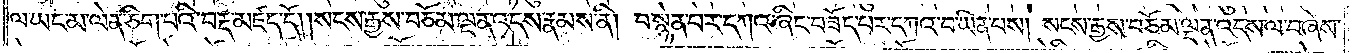ལ་ཡང་མ་ལེན་ཅིག་པའི་བརྡ་མཛད་དོ། །སངས་རྒྱས་བཅོམ་ལྡན་འདས་རྣམས་ནི། བསྙེན་པར་དཀའ་ཞིང་བཟོད་པར་དཀའ་བ་ཡིན་པས། སངས་རྒྱས་བཅོམ་ལྡན་འདས་ལ་བཞེས་
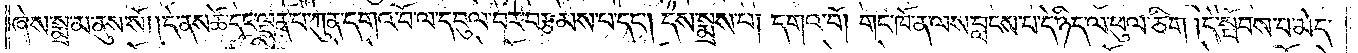ཞེས་སྨྲ་མ་ནུས་སོ། །དེ་ནས་ཚེ་དང་ལྡན་པ་ཀུན་དགའ་བོ་ལ་དབུལ་བར་བརྩམས་པ་དང༌། དེས་སྨྲས་པ། དགའ་བོ། གང་ཁོ་ན་ལས་བླངས་པ་དེ་ཉིད་ལ་ཕུལ་ཅིག །དེ་སྤོབས་པ་མེད་
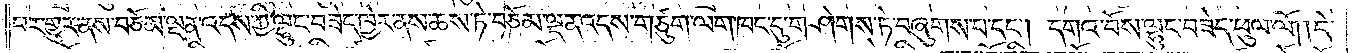པར་གྱུར་ནས་བཅོམ་ལྡན་འདས་ཀྱི་ལྷུང་བཟེད་ཁྱེར་ནས་ཆས་ཏེ་བཅོམ་ལྡན་འདས་གཙུག་ལག་ཁང་དུ་གཤེགས་ཏེ་བཞུགས་པ་དང༌། དགའ་བོས་ལྷུང་བཟེད་ཕུལ་ལོ། །དེ་
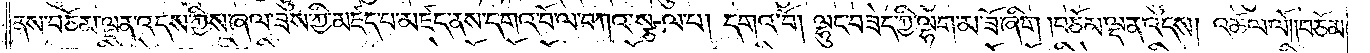ནས་བཅོམ་ལྡན་འདས་ཀྱིས་ཞལ་ཟས་ཀྱི་མཛད་པ་མཛད་ནས་དགའ་བོ་ལ་བཀའ་སྩལ་པ། དགའ་བོ། ལྷུང་བཟེད་ཀྱི་ལྷག་མ་ཟོ་ཞིག །བཅོམ་ལྡན་འདས། འཚལ་ལོ། །བཅོམ་
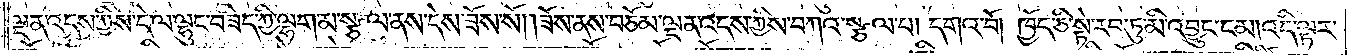ལྡན་འདས་ཀྱིས་དེ་ལ་ལྷུང་བཟེད་ཀྱི་ལྷག་མ་སྩལ་ནས་དེས་ཟོས་སོ། །ཟོས་ནས་བཅོམ་ལྡན་འདས་ཀྱིས་བཀའ་སྩལ་པ། དགའ་བོ། ཁྱོད་ཅི་སྟེ་རབ་ཏུ་མི་འབྱུང་ངམ། འདི་ལྟར་
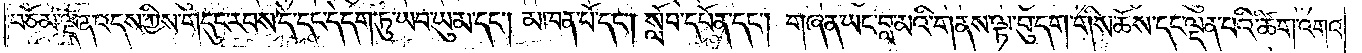བཅོམ་ལྡན་འདས་ཀྱིས་གདུང་རབས་དེ་དང་དེ་དག་ཏུ་ཡབ་ཡུམ་དང༌། མཁན་པོ་དང༌། སློབ་དཔོན་དང༌། གཞན་ཡང་བླ་མའི་གནས་ལྟ་བུ་དག་གིས་ཆོས་དང་ལྡན་པའི་ཚིག་འགའ་
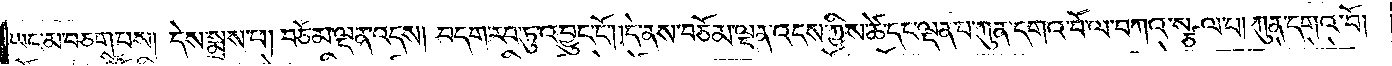ཡང་མ་བཅག་པས། དེས་སྨྲས་པ། བཅོམ་ལྡན་འདས། བདག་རབ་ཏུ་འབྱུང་ངོ༌། །དེ་ནས་བཅོམ་ལྡན་འདས་ཀྱིས་ཚེ་དང་ལྡན་པ་ཀུན་དགའ་བོ་ལ་བཀའ་སྩལ་པ། ཀུན་དགའ་བོ།
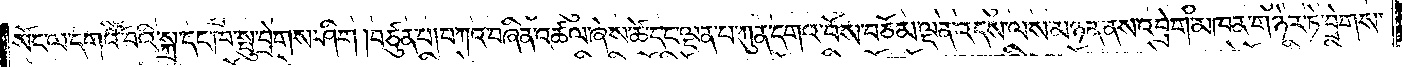སོང་ལ་དགའ་བོའི་སྐྲ་དང་ཁ་སྤུ་བྲེགས་ཤིག །བཙུན་པ། བཀའ་བཞིན་འཚལ་ཞེས་ཚེ་དང་ལྡན་པ་ཀུན་དགའ་བོས་བཅོམ་ལྡན་འདས་ལས་མཉན་ནས་འབྲེག་མཁན་གཉེར་ཏེ་བྲེགས་
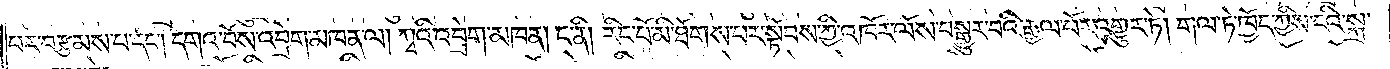པར་བརྩམས་པ་དང༌། དགའ་བོས་འབྲེག་མཁན་ལ། ཀྭའི་འབྲེག་མཁན། ང་ནི། རིང་པོ་མི་ཐོགས་པར་སྟོབས་ཀྱི་འཁོར་ལོས་བསྒྱུར་བའི་རྒྱལ་པོར་འགྱུར་ཏེ། གལ་ཏེ་ཁྱོད་ཀྱིས་ངའི་སྐྲ་
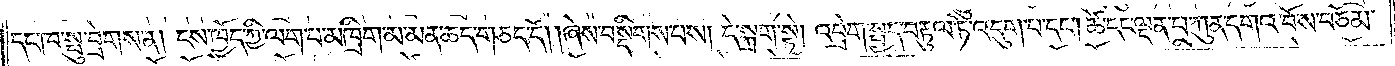དང་ཁ་སྤུ་བྲེགས་ན། ངས་ཁྱོད་ཀྱི་ལག་པ་མཁྲིག་མ་མན་ཆད་གཅད་དོ། །ཞེས་བསྡིགས་པས། དེ་སྐྲག་སྟེ། འབྲེག་སྤྱད་བརྟུལ་ཏེ་འདུག་པ་དང༌། ཚེ་དང་ལྡན་པ་ཀུན་དགའ་བོས་བཅོམ་
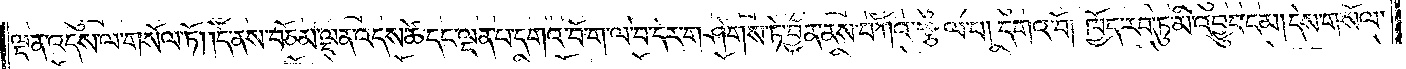ལྡན་འདས་ལ་གསོལ་ཏོ། །དེ་ནས་བཅོམ་ལྡན་འདས་ཚེ་དང་ལྡན་པ་དགའ་བོ་ག་ལ་བ་དེར་གཤེགས་ཏེ་བྱོན་ནས་བཀའ་སྩལ་པ། དགའ་བོ། ཁྱོད་རབ་ཏུ་མི་འབྱུང་ངམ། དེས་གསོལ་
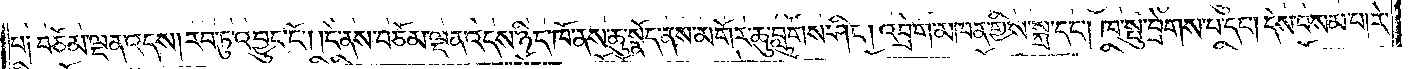པ། བཅོམ་ལྡན་འདས། རབ་ཏུ་འབྱུང་ངོ༌། །དེ་ནས་བཅོམ་ལྡན་འདས་ཉིད་ཁོ་ནས་ཆུ་སྣོད་ནས་མགོར་ཆུ་བླུགས་ཤིང༌། འབྲེག་མཁན་གྱིས་སྐྲ་དང༌། ཁ་སྤུ་བྲེགས་པ་དང༌། དེས་བསམ་པ། རེ་
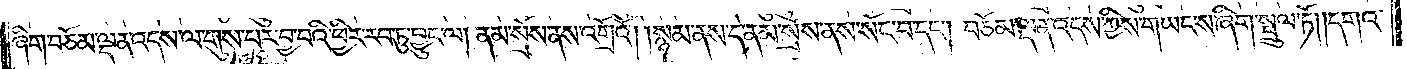ཞིག་བཅོམ་ལྡན་འདས་ལ་གུས་པར་བྱ་བའི་ཕྱིར་རབ་ཏུ་བྱུང་ལ། ནམ་སྲོས་ནས་འགྲོའོ། །སྙམ་ནས་དེ་ནམ་སྲོས་ནས་སོང་བ་དང༌། བཅོམ་ལྡན་འདས་ཀྱིས་གཡང་ས་ཞིག་སྤྲུལ་ཏོ། །དགའ་
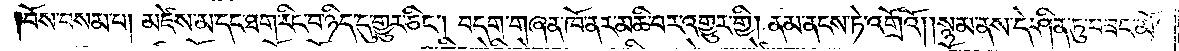བོས་བསམ་པ། མཛེས་མ་དང་ཐག་རིང་བ་ཉིད་དུ་གྱུར་ཅིང༌། བདག་གཞན་ཁོ་ནར་མཆི་བར་འགྱུར་གྱི། ནམ་ནངས་ཏེ་འགྲོའོ། །སྙམ་ནས་དེ་ཤིན་ཏུ་བཟང་མོ་
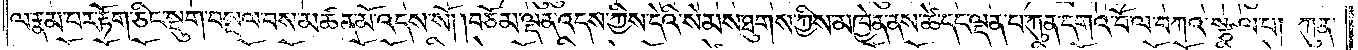ལ་རྣམ་པར་རྟོག་ཅིང་སྡུག་བསྔལ་བས་མཚན་མོ་འདས་སོ། །བཅོམ་ལྡན་འདས་ཀྱིས་དེའི་སེམས་ཐུགས་ཀྱིས་མཁྱེན་ནས་ཚེ་དང་ལྡན་པ་ཀུན་དགའ་བོ་ལ་བཀའ་སྩལ་པ། ཀུན་
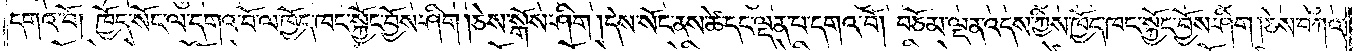དགའ་བོ། ཁྱོད་སོང་ལ་དགའ་བོ་ལ་ཁྱོད་ཁང་སྐྱོང་བྱོས་ཤིག །ཅེས་སྒོས་ཤིག །དེས་སོང་ནས་ཚེ་དང་ལྡན་པ་དགའ་བོ། བཅོམ་ལྡན་འདས་ཀྱིས་ཁྱོད་ཁང་སྐྱོང་བྱོས་ཤིག །ཅེས་བཀའ་
